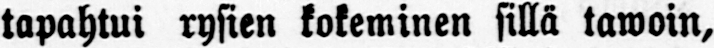tapahtui rysien kokeminen sillä tawoin,
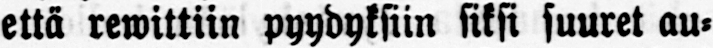että rewittiin pyydyksiin siksi suuret au-
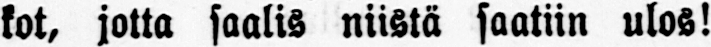kot, jotta saalis niistä saatiin ulos!
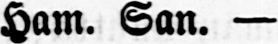Ham. San. —
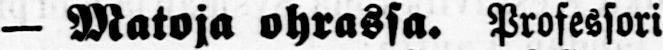— Matoja ohrassa. Professori
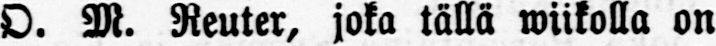O. M. Reuter, joka tällä wiikolla on
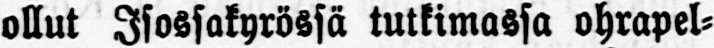ollut Isossakyrössä tutkimassa ohrapel-
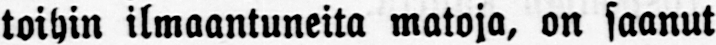toihin ilmaantuneita matoja, on saanut
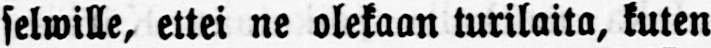selwille, ettei ne olekaan turilaita, kuten
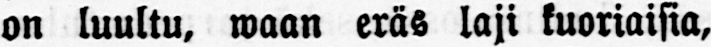on luultu, waan eräs laji kuoriaisia,
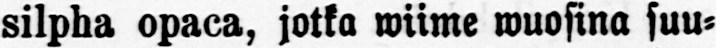silpha opaca, jotka wiime wuosina suu-
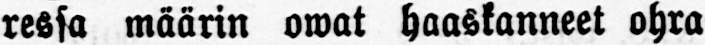ressa määrin owat haaskanneet ohra-
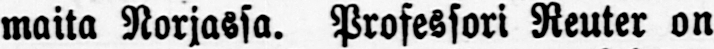maita Norjassa. Professori Reuter on
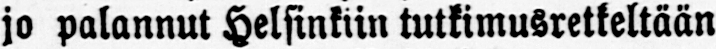jo palannut Helsinkiin tutkimusretkeltään
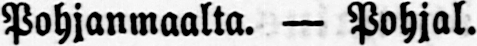Pohjanmaalta. — Pohjal.
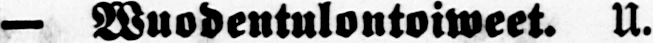— Wuodentulontoiweet. U.
